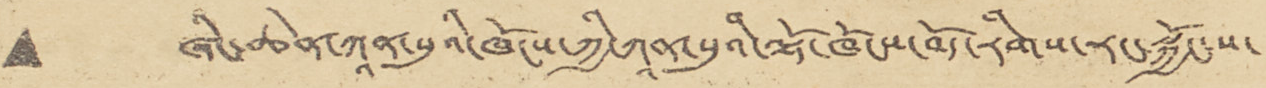• ཞིང་ཆེན་ཀཱན་སུའི་ཁོངས་ཀྱི་ཀཱན་སུའི་ལྷོ་ཁོངས་བོད་རིགས་རང་སྐྱོང་ས་
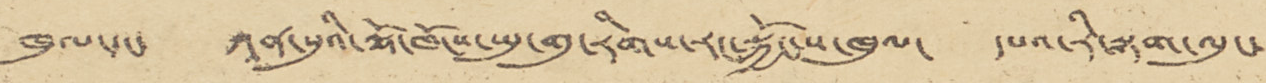ཁུལ་དང་ ཀཱན་སུའི་ལྷོ་ཁོངས་གུ་རིགས་རང་སྐྱོང་ས་ཁུལ་ དཔའ་རི་སྟག་ལུང་
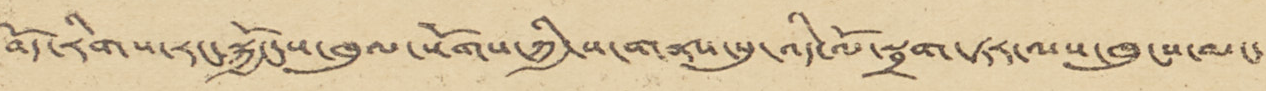བོད་རིགས་རང་སྐྱོང་ས་ཁུལ་སོགས་ཀྱི་ས་གནས་སུ་འདི་ལོ་སྦྲག་ཏར་ལས་ཁུངས་མང་
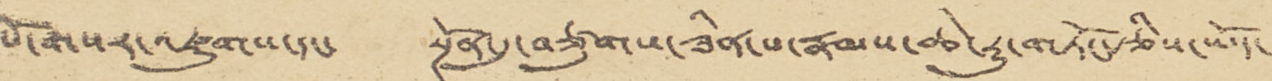པོ་གསར་འཛུགས་དང་ སྔོན་དུ་བཙུགས་ཟིན་པ་རྣམས་ཆེ་རུ་གཏོང་རྩིས་ཡོད་
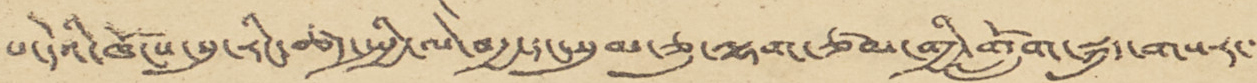པ་དེའི་ཁོངས་སུ་རིང་ཚད་སྤྱི་ལེ་བརྒྱ་དང་སུམ་ཅུ་ལྷག་ཙམ་གྱི་གློག་སྐུད་གསར་་་
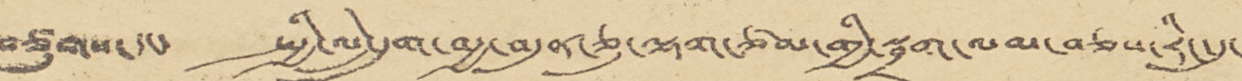བཙུགས་དང་ སྤྱི་ལེ་དྲུག་བརྒྱ་བདུན་ཅུ་ལྷག་ཙམ་གྱི་སྦྲག་ལམ་བཅས་རིང་དུ་
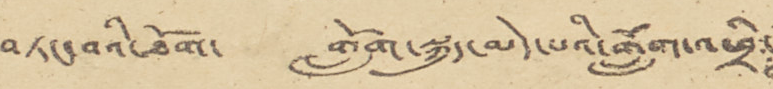བཏང་བའི་ཐོག་ གློག་སྐུད་མེད་པའི་གློག་
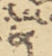ན
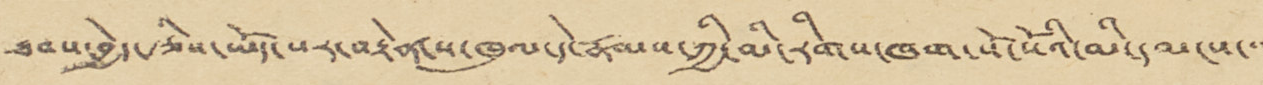ཐབས་བྱེད་རྩིས་ཡོད་པར་བརྟེན་ས་ཁུལ་དེ་རྣམས་ཀྱི་མི་རིགས་ཁག་སོ་སོའི་མི་དམངས་་་
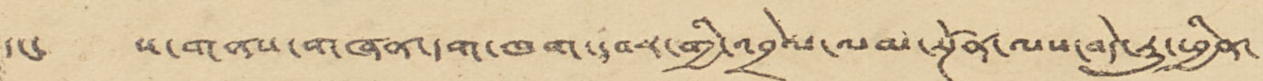དང་ ས་གནས་གཞན་དག་ཁག་དབར་གྱི་འབྲེལ་ལམ་སྔོན་ལས་བདེ་རུ་ཕྱིན་
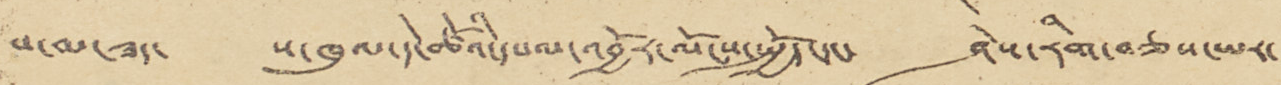པ་མ་ཟད་ ས་ཁུལ་དེ་ཚོའི་དཔལ་འབྱོར་ལོངས་སྤྱོད་དང་ ཤེས་རིག་བཅས་ཡར་
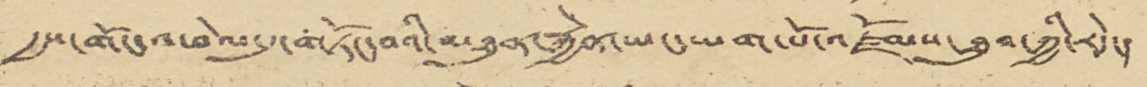རྒྱས་གོང་འཕེལ་དུ་གཏོང་བའི་མཐུན་རྐྱེན་ཡང་ཡག་པོ་འཛོམས་ཐུབ་ཀྱི་རེད་།
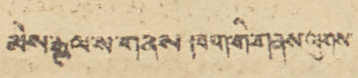མེས་རྒྱལ་ས་གནས་ཁག་གི་གནས་ལུགས་
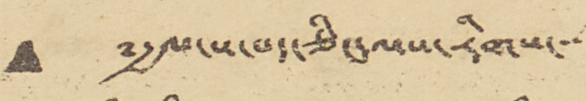• ༸རྒྱལ་ས་པད་ཅིང་ལས་རིགས་་་་
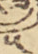༥
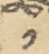༡
